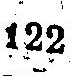122
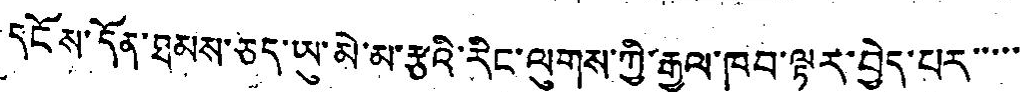དངོས་དོན་ཐམས་ཅད་ཡུ་མེ་མ་རྩའི་རིང་ལུགས་ཀྱི་རྒྱལ་ཁབ་ལྟར་བྱེད་པར་་་་་
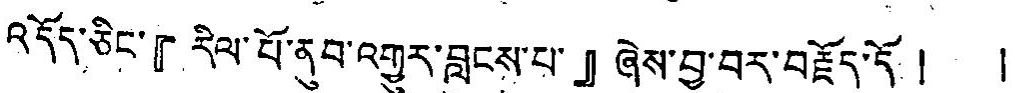འདོད་ཅིང་『རིལ་པོ་ནུབ་འགྱུར་བླངས་པ་』ཞེས་བྱ་བར་བརྗོད་དོ། །
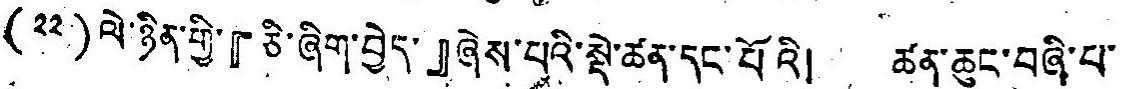(༢༢)ལེ་ཉིན་གྱི་『ཅི་ཞིག་བྱེད་』ཞེས་པའི་སྡེ་ཚན་དང་པོའི། ཚན་ཆུང་བཞི་པ་
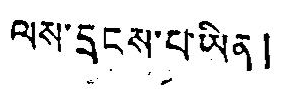ལས་དྲངས་པ་ཡིན།
